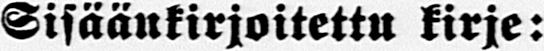Sisäänkirjoitettu kirje:
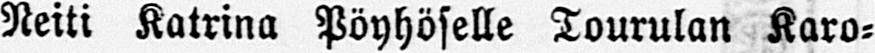Neiti Katrina Pöyhöselle Tourulan Karo-
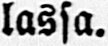lassa.
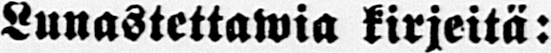Lunastettawia kirjeitä:
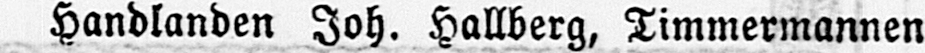Handlanden Joh. Hallberg, Timmermannen
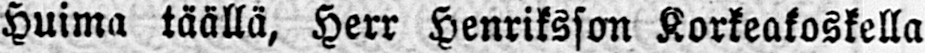Huima täällä, Herr Henriksson Korkeakoskella
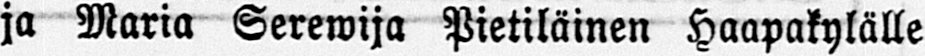ja Maria Serewija Pietiläinen Haapakylälle
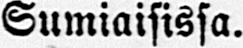Sumiaisissa.
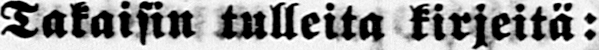Takaisin tulleita kirjeitä:
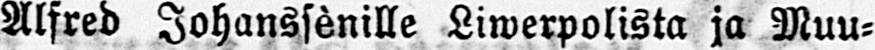Alfred Johanssènille Liwerpolista ja Muu-
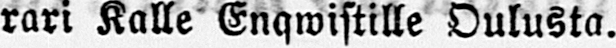rari Kalle Engwistille Oulusta.
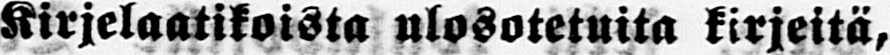Kirjelaatikoista ulosotetuita kirjeitä,
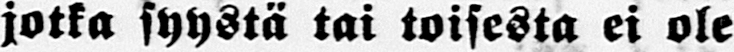jotka syystä tai toisesta ei ole
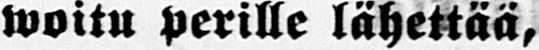woitu perille lähettää,
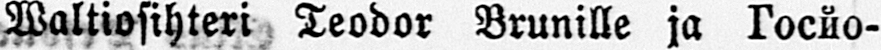Waltiosihteri Teodor Brunille ja Гocйo-
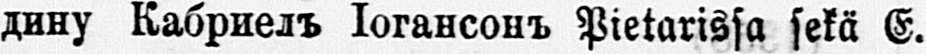дину К aбp и e дъ Ioг aн sco нъ Pietarissa sekä E.
